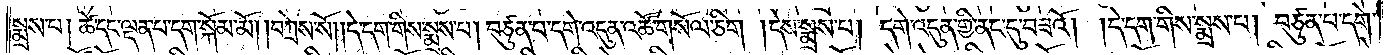སྨྲས་པ། ཚེ་དང་ལྡན་པ་དག་སྐོམ་མོ། །བཀྲེས་སོ། །དེ་དག་གིས་སྨྲས་པ། བཙུན་པ་དགེ་འདུན་འཚོ་གསོལ་ཅིག །དེས་སྨྲས་པ། དགེ་འདུན་གྱི་ནང་དུ་བཟའོ། །དེ་དག་གིས་སྨྲས་པ། བཙུན་པ་དགེ་
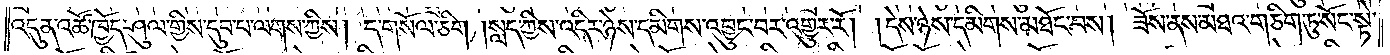འདུན་འཚོ་ཁྱོད་ཤུལ་གྱིས་དུབ་པ་ལགས་ཀྱིས། ད་གསོལ་ཅིག །སླད་ཀྱིས་འདིར་ཉེས་དམིགས་འབྱུང་བར་འགྱུར་རོ། །དེས་ཉེས་དམིགས་མཐོང་བས། ཟོས་ནས་མཐའ་གཅིག་ཏུ་སོང་སྟེ་
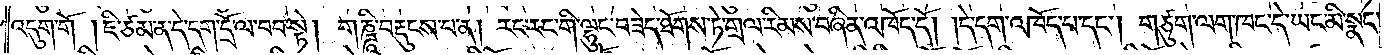འདུག་གོ། །ཇི་ཙམ་ན་དེ་དག་དྲོ་ལ་བབ་སྟེ། གཎྜཱི་བརྡུངས་པ་ན། རང་རང་གི་ལྷུང་བཟེད་ཐོགས་ཏེ་གྲལ་རིམས་བཞིན་འཁོད་དོ། །དེ་དག་འཁོད་པ་དང༌། གཙུག་ལག་ཁང་དེ་ཡང་མི་སྣང་
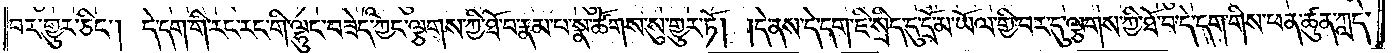བར་གྱུར་ཅིང༌། དེ་དག་གི་རང་རང་གི་ལྷུང་བཟེད་ཀྱང་ལྕགས་ཀྱི་ཐོ་བ་རྣམ་པ་སྣ་ཚོགས་སུ་གྱུར་ཏོ། །དེ་ནས་དེ་དག་ཇི་སྲིད་དུ་དྲོ་མ་ཡོལ་གྱི་བར་དུ་ལྕགས་ཀྱི་ཐོ་བ་དེ་དག་གིས་ཕན་ཚུན་ཀླད་
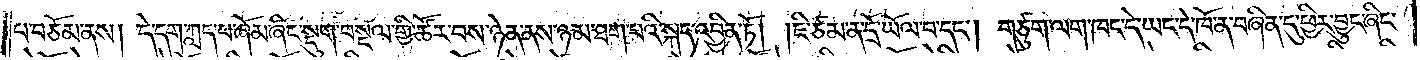པ་བཅོམ་ནས། དེ་དག་ཀླད་པ་ཞོམ་ཞིང་སྡུག་བསྔལ་གྱི་ཚོར་བས་ཉེན་ནས་ཉམ་ཐག་པའི་སྐད་འབྱིན་ཏོ། །ཇི་ཙམ་ན་དྲོ་ཡོལ་བ་དང༌། གཙུག་ལག་ཁང་དེ་ཡང་དེ་ཁོ་ན་བཞིན་དུ་ཕྱིར་བྱུང་ཞིང་
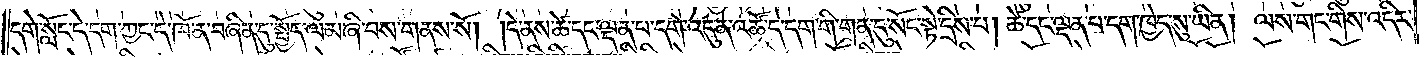དགེ་སློང་དེ་དག་ཀྱང་དེ་ཁོ་ན་བཞིན་དུ་སྤྱོད་ལམ་ཞི་བས་གནས་སོ། །དེ་ནས་ཚེ་དང་ལྡན་པ་དགེ་འདུན་འཚོ་དེ་དག་གི་གན་དུ་སོང་སྟེ་དྲིས་པ། ཚེ་དང་ལྡན་བ་དག་ཁྱེད་སུ་ཡིན། ལས་གང་གིས་འདིར་
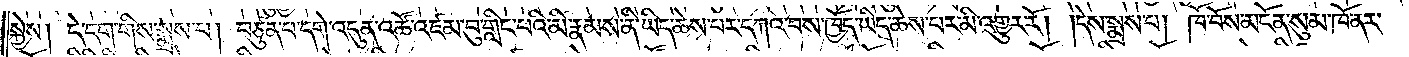སྐྱེས། དེ་དག་གིས་སྨྲས་པ། བཙུན་པ་དགེ་འདུན་འཚོ་འཛམ་བུ་གླིང་པའི་མི་རྣམས་ནི་ཡིད་ཆེས་པར་དཀའ་བས་ཁྱོད་ཡིད་ཆེས་པར་མི་འགྱུར་རོ། །དེས་སྨྲས་པ། ཁོ་བོས་མངོན་སུམ་ཁོ་ནར་
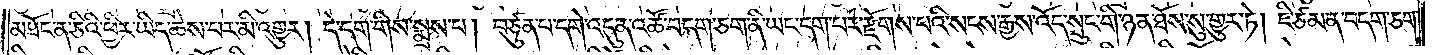མཐོང་ན་ཅིའི་ཕྱིར་ཡིད་ཆེས་པར་མི་འགྱུར། དེ་དག་གིས་སྨྲས་པ། བཙུན་པ་དགེ་འདུན་འཚོ་བདག་ཅག་ནི་ཡང་དག་པར་རྫོགས་པའི་སངས་རྒྱས་འོད་སྲུང་གི་ཉན་ཐོས་སུ་གྱུར་ཏེ། ཇི་ཙམ་ན་བདག་ཅག་
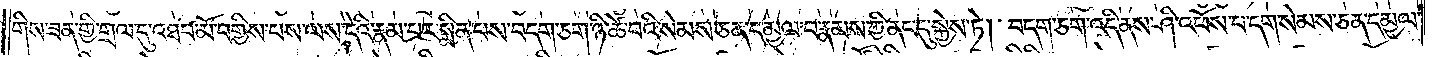གིས་ཟན་གྱི་གྲལ་དུ་འཐབ་མོ་བགྱིས་པས་ལས་དེའི་རྣམ་པར་སྨིན་པས་བདག་ཅག་ཉི་ཚེ་བའི་སེམས་ཅན་དམྱལ་བ་རྣམས་ཀྱི་ནང་དུ་སྐྱེས་ཏེ། བདག་ཅག་འདི་ནས་ཤི་འཕོས་པ་དག་སེམས་ཅན་དམྱལ་
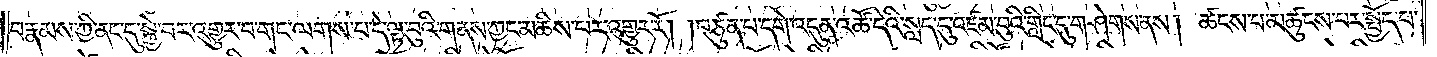བ་རྣམས་ཀྱི་ནང་དུ་སྐྱེ་བར་འགྱུར་བ་གང་ལགས་པ་དེ་ལྟ་བུའི་གནས་ཀྱང་མཆིས་པར་འགྱུར་རོ། །བཙུན་པ་དགེ་འདུན་འཚོ་དེའི་སླད་དུ་འཛམ་བུའི་གླིང་དུ་གཤེགས་ནས། ཚངས་པ་མཚུངས་པར་སྤྱོད་པ་
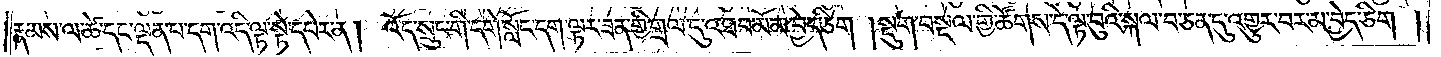རྣམས་ལ་ཚེ་དང་ལྡན་པ་དག་འདི་ལྟ་སྟེ་དཔེར་ན། འོད་སྲུང་གི་དགེ་སློང་དག་ལྟར་ཟན་གྱི་གྲལ་དུ་འཐབ་མོ་མ་བྱེད་ཅིག །སྡུག་བསྔལ་གྱི་ཚོགས་དེ་ལྟ་བུའི་སྐལ་བ་ཅན་དུ་འགྱུར་བར་མ་བྱེད་ཅིག།
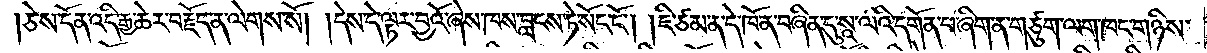ཅེས་དོན་འདི་རྒྱ་ཆེར་བརྗོད་ན་ལེགས་སོ། །དེས་དེ་ལྟར་བྱའོ་ཞེས་ཁས་བླངས་ཏེ་སོང་ངོ༌། །ཇི་ཙམ་ན་དེ་ཁོ་ན་བཞིན་དུ་སཱ་ལའི་དགོན་པ་ཞིག་ན་གཙུག་ལག་ཁང་གཉིས་
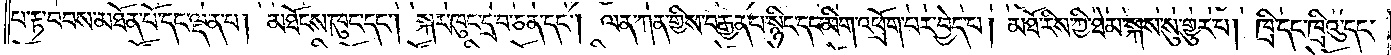པ་རྟ་བབས་མཐོན་པོ་དང་ལྡན་པ། མཐོངས་ཁུང་དང༌། སྐར་ཁུང་དྲ་བ་ཅན་དང༌། ལན་ཀན་གྱིས་བརྒྱན་པ་སྙིང་དང་མིག་འཕྲོག་པར་བྱེད་པ། མཐོ་རིས་ཀྱི་ཐེམ་སྐས་སུ་གྱུར་པ། ཁྲི་དང་ཁྲིའུ་དང་
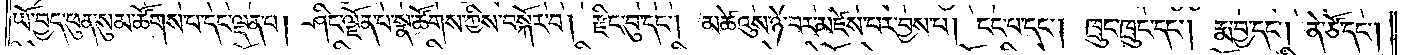ཡོ་བྱད་ཕུན་སུམ་ཚོགས་པ་དང་ལྡན་པ། ཤིང་ལྗོན་པ་སྣ་ཚོགས་ཀྱིས་བསྐོར་པ། རྫིང་བུ་དང༌། མཚེའུས་ཉེ་བར་མཛེས་པར་བྱས་པ། ངང་པ་དང༌། ཁྲུང་ཁྲུང་དང༌། རྨ་བྱ་དང༌། ནེ་ཙོ་དང༌།
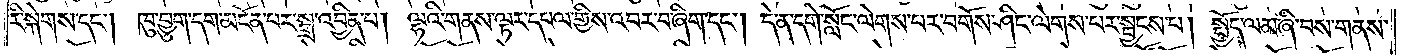རི་སྐེགས་དང༌། ཁུ་བྱུག་དག་མངོན་པར་སྒྲ་འབྱིན་པ། ལྷའི་གནས་ལྟར་དཔལ་གྱིས་འབར་བ་ཞིག་དང༌། དེ་ན་དགེ་སློང་ལེགས་པར་བགོས་ཤིང་ལེགས་པར་སྦྱངས་པ། སྤྱོད་ལམ་ཞི་བས་གནས་
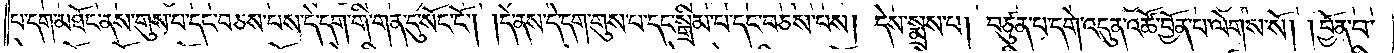པ་དག་མཐོང་ནས་གུས་པ་དང་བཅས་པས་དེ་དག་གི་གན་དུ་སོང་ངོ༌། །དེ་ནས་དེ་དག་གུས་པ་དང་སྒྲིམ་པ་དང་བཅས་པས། དེས་སྨྲས་པ། བཙུན་པ་དགེ་འདུན་འཚོ་བྱོན་པ་ལེགས་སོ། །བྱོན་པ་
